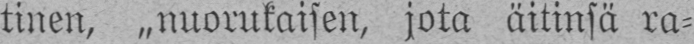tinen, „nuorukaisen, jota äitinsä ra-
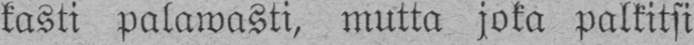kasti palawasti, mutta joka palkitsi
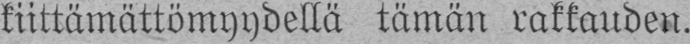kiittämättömyydellä tämän rakkauden.
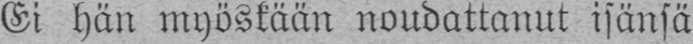Ei hän myöskään noudattanut isänsä
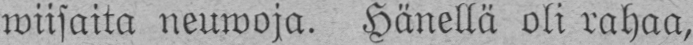wiisaita neuwoja. Hänellä oli rahaa,
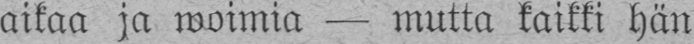aikaa ja woimia — mutta kaikki hän
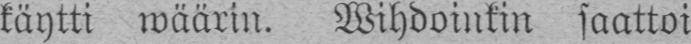käytti wäärin. Wihdoinkin saattoi
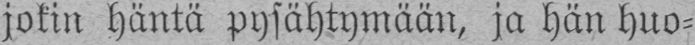jokin häntä pysähtymään, ja hän huo-
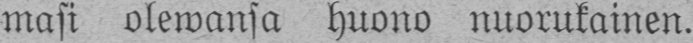masi olewansa huono nuorukainen.
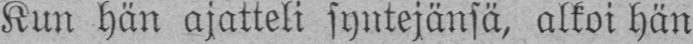Kun hän ajatteli syntejänsä, alkoi hän
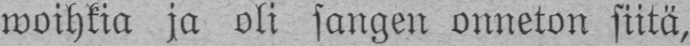woihkia ja oli sangen onneton siitä,
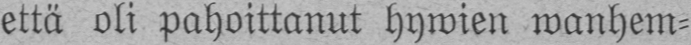että oli pahoittanut hywien wanhem-
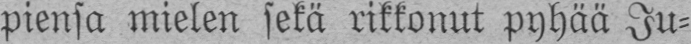piensa mielen sekä rikkonut pyhää Ju-
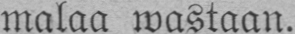malaa wastaan.
